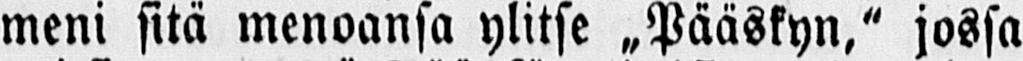meni sitä menoansa ylitse „Pääskyn," jossa
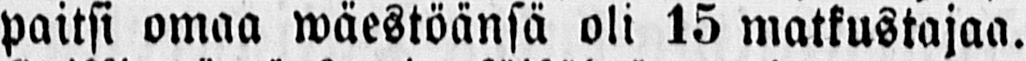paitsi omaa wäestöänsä oli 15 matkustajaa.
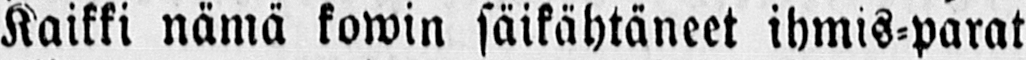Kaikki nämä kowin säikähtäneet ihmis-parat
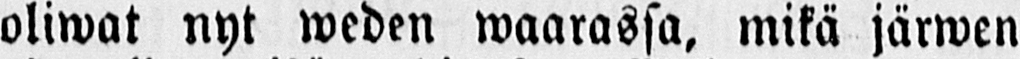oliwat nyt weden waarassa, mikä järwen
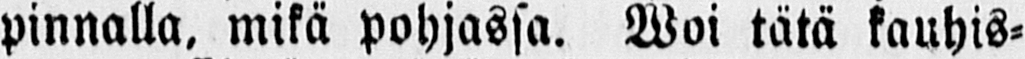pinnalla, mikä pohjassa. Woi tätä kauhis-
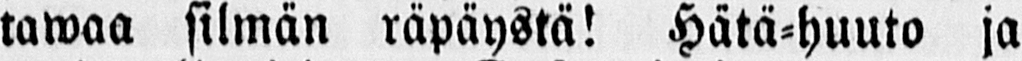tawaa silmän räpäystä! Hätä-huuto ja
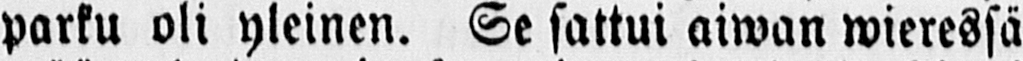parku oli yleinen. Se sattui aiwan wieressä
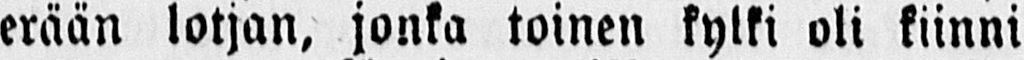erään lotjan, jonka toinen kylki oli kiinni
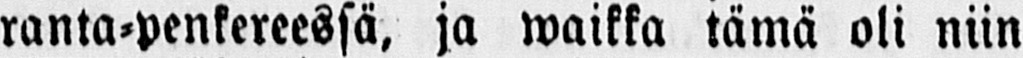ranta-penkereessä, ja waikka tämä oli niin
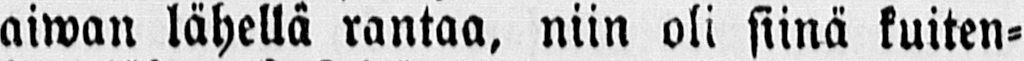aiwan lähellä rantaa, niin oli siinä kuiten-
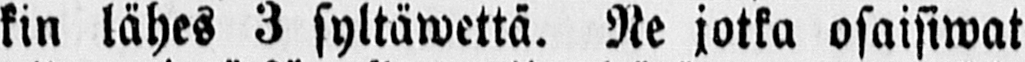kin lähes 3 syltäwettä. Ne jotka osaisiwat
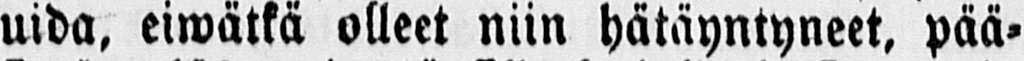uida, eiwätkä olleet niin hätäyntyneet, pää-
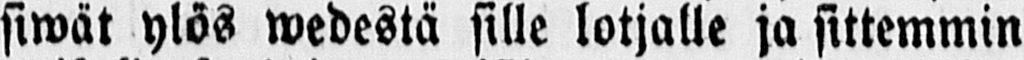siwat ylös wedestä sille lotjalle ja sittemmin
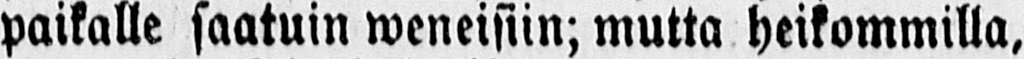paikalle saatuin weneisiin; mutta heikommilla,
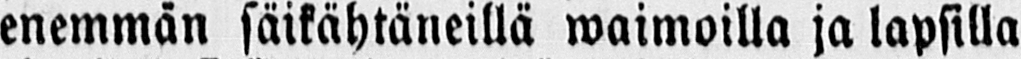enemmän säikähtäneillä waimoilla ja lapsilla
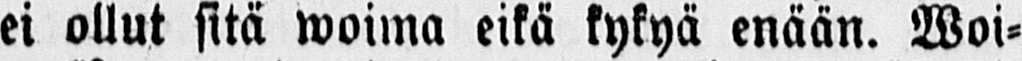ei ollut sitä woima eikä kykyä enään. Woi-
